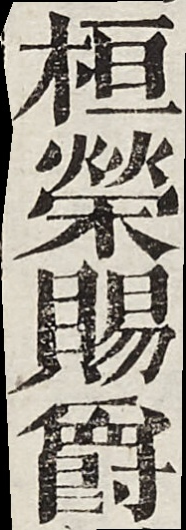桓榮賜爵
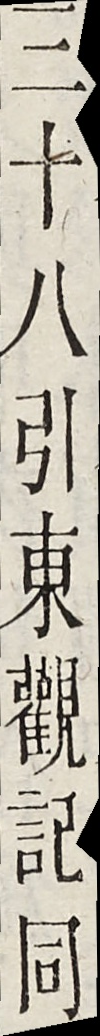三十八引東觀記同
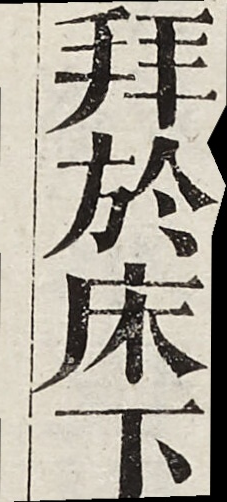拜於床下
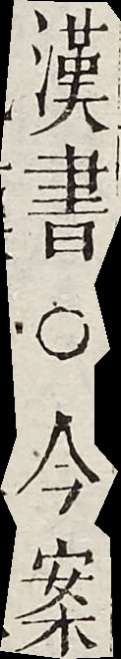漢書○今案
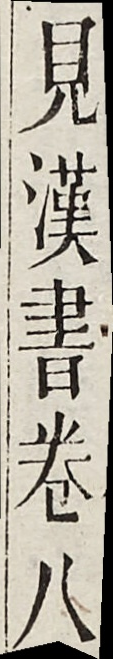見漢書卷八
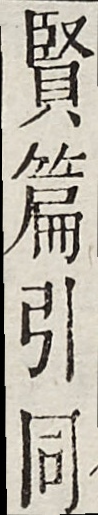賢篇引同
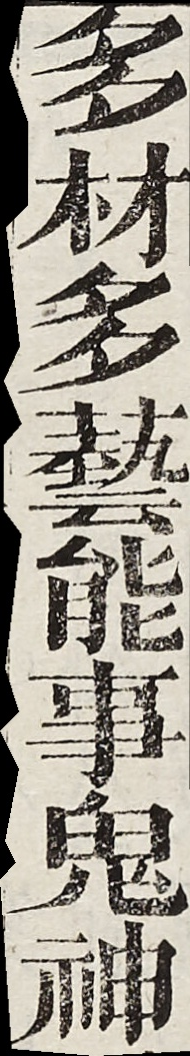多材多藝能事鬼神
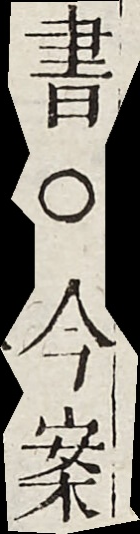書○今案
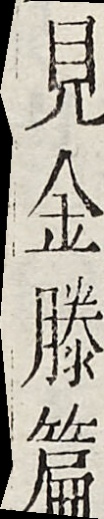見金滕篇
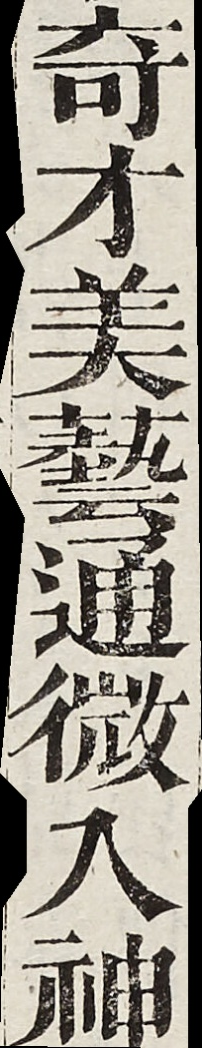奇才美藝通微入神
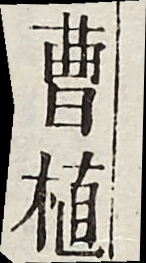曹植
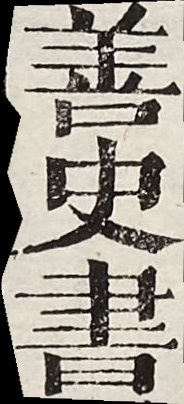善史書
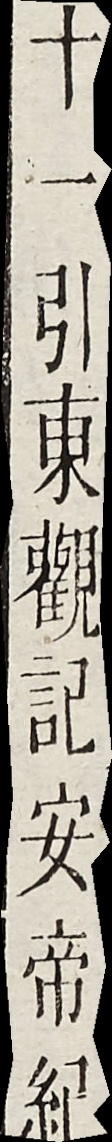十一引東觀記安帝紀
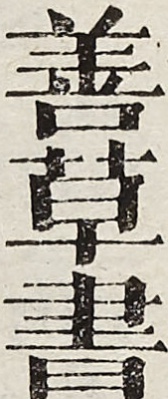善草書
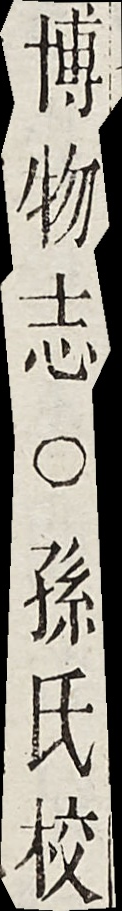博物志○孫氏校
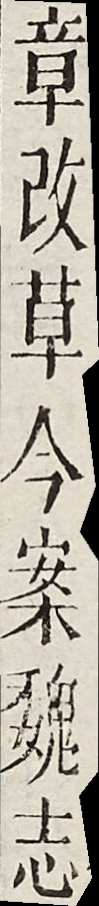章改草今案魏志
